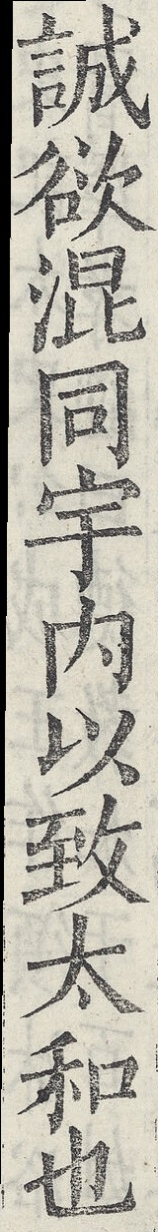誠欲混同宇內以致太和也
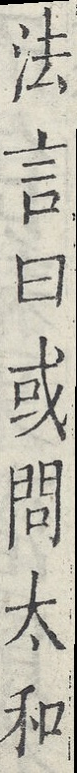法言曰或問太和
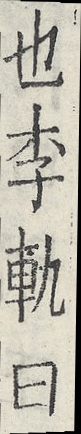也李軌曰
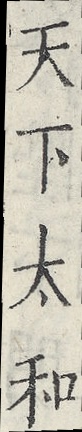天下太和
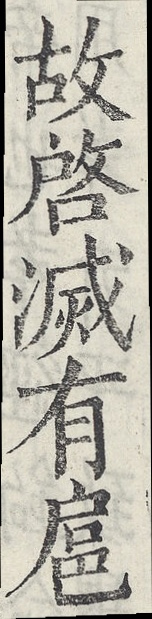故啟滅有扈
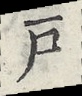戶
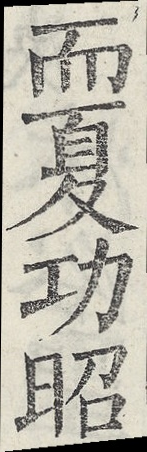而夏功昭
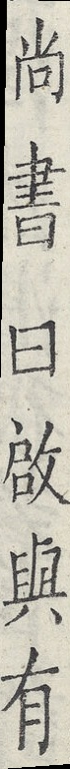尚書曰啟與有
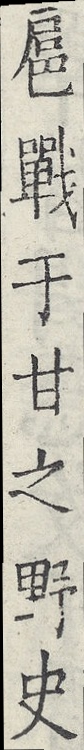扈戰于甘之野史
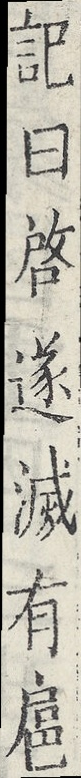記曰啟遂滅有扈
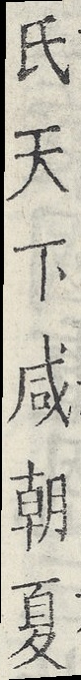氏天下咸朝夏
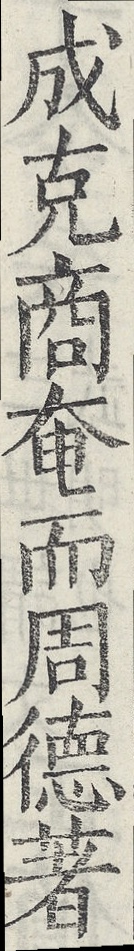成克商奄而周德著
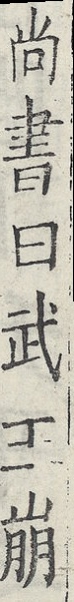尚書曰武王崩
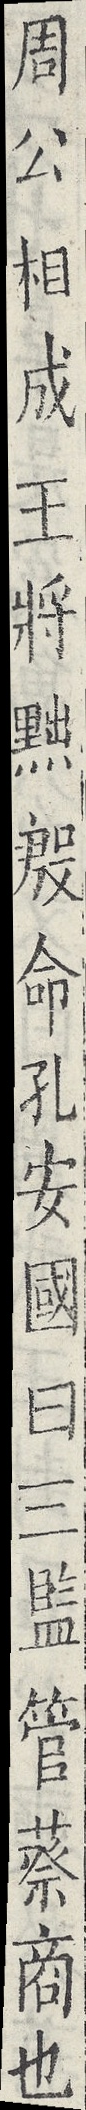周公相成王將黜殷命孔安國曰三監管蔡商也
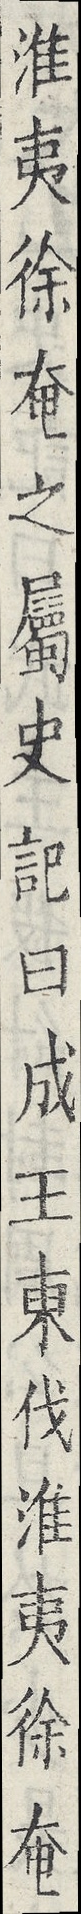淮夷徐奄之屬史記曰成王東伐淮夷徐奄
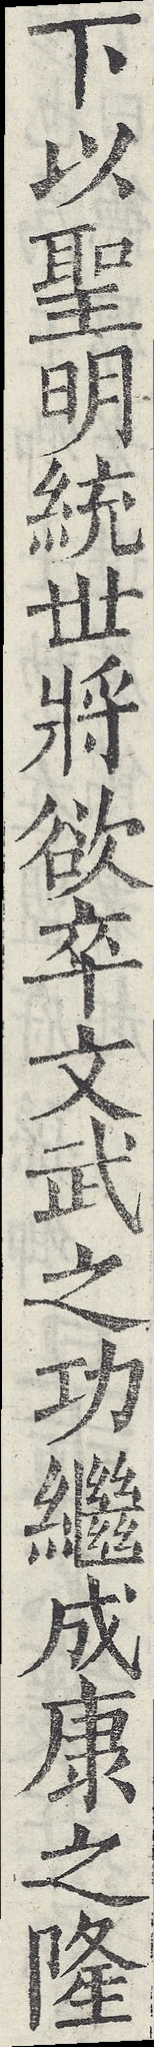下以聖明統世將欲卒文武之功繼成康之隆
